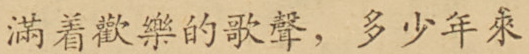滿着歡樂的歌聲，多少年來
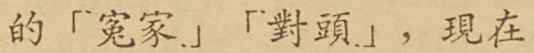的「冤家」「對頭」，現在
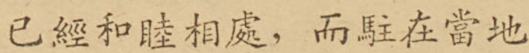已經和睦相處，而駐在當地
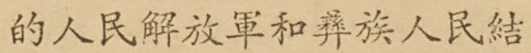的人民解放軍和彝族人民結
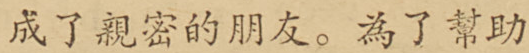成了親密的朋友。為了幫助
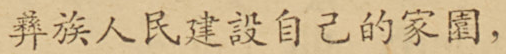彝族人民建設自己的家園，
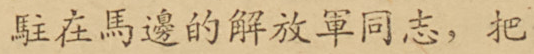駐在馬邊的解放軍同志，把
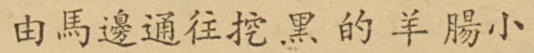由馬邊通往挖黑的羊腸小
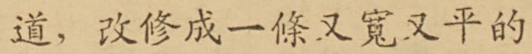道，改修成一條又寬又平的
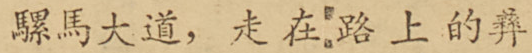騾馬大道，走在路上的彝
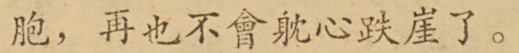胞，再也不會躭心跌崖了。
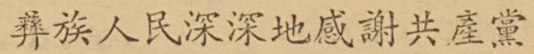彝族人民深深地感謝共產黨
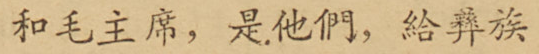和毛主席，是他們，給彝族
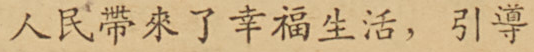人民帶來了幸福生活，引導
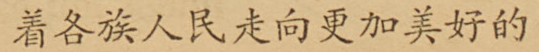着各族人民走向更加美好的
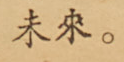未來。
